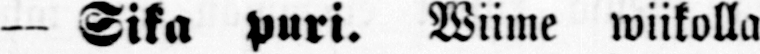— Sika puri. Wiime wiikolla
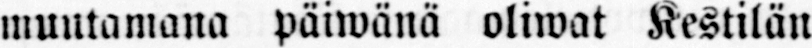muutamana päiwänä oliwat Kestilän
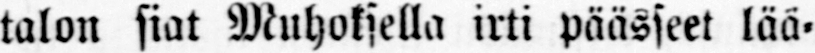talon siat Muhoksella irti päässeet lää-
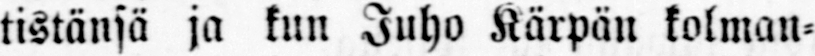tistänsä ja kun Juho Kärpän kolman-
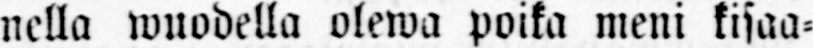nella wuodella olewa poika meni kisaa-
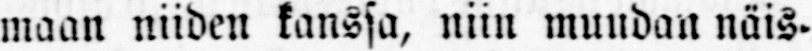maan niiden kanssa, niin muudan näis-
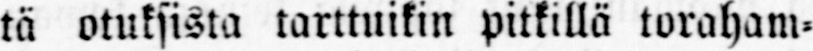tä otuksista tarttuikin pitkillä toraham-
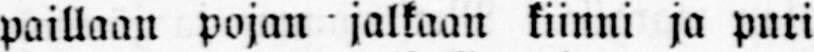paillaan pojan jalkaan kiinni ja puri
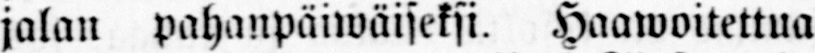jalan pahanpäiwäiseksi. Haawoitettua
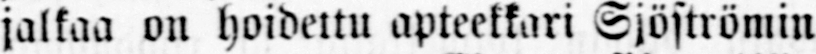jalkaa on hoidettu apteekkari Sjöströmin
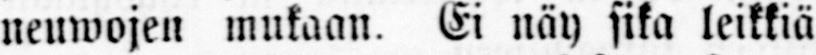neuwojen mukaan. Ei näy sika leikkiä
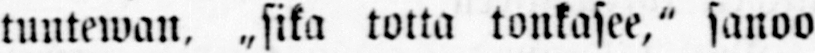tuntewan, ˶sika totta tonkasee," sanoo
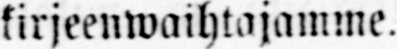kirjeenwaihtajamme.
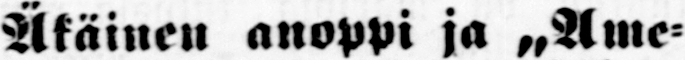Äkäinen anoppi ja „Ame-
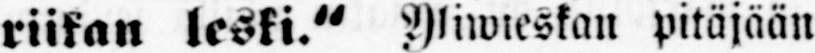riikan leski." Yliwieskan pitäjään
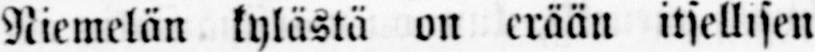Niemelän kylästä on erään itsellisen
